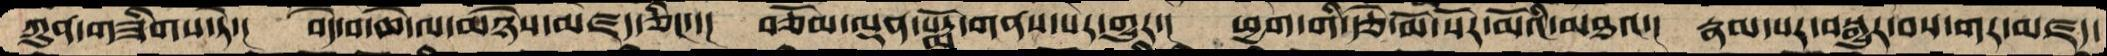ཀུན་གཟིགས་ཏེ་།  བདེ་བ་ཆེ་ལ་མཉེས་མཛད་ཅིང་་།  བཅོམ་ལྡན་པདྨོ་གནས་པར་གྱུར་།  ཕྱག་གི་རྩེ་མོ་སོར་མོའི་མཐའ་།  རྣམ་པར་བསྒྱུར་བས་གར་མཛད་
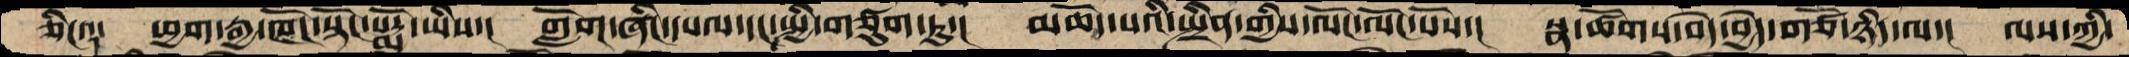ཅིང་༴་  ཕྱག་རྒྱ་ཁོང་སྟོང་པདྨོ་ཡིས་།  གློག་ཞིང་དཔལ་དང་སྤྱི་གཙུག་ཏུ་།  མཆོད་པའི་སྤྲིན་གྱིས་ལོང་ལོང་པོས་།  སྣ་ཚོགས་བདེ་བྱེད་གཙོ་ཉིད་ལ་།  ལས་ཀྱི་
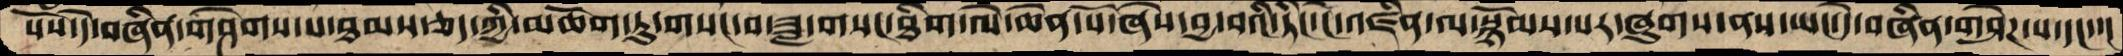པོས་དེ་བཞིན་གཤེགས་པ་ཐམས་ཅད་ཀྱི་མཆོག་ཏུ་གསང་བ་ཟླ་གསང་ཐིག་ལེ་ཆེན་པོ་ཞེས་བྱ་བའི་ཏིང་ངེ་འཛིན་ལ་སྙོམས་པར་ཞུགས་ནས་ཡང་དེ་བཞིན་གཤེཌ་པ་དང་་།
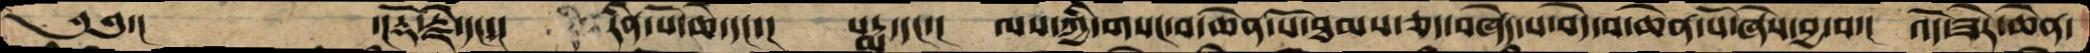༄༅་།        ་།རྡོ་རྗེ་དང་།  རིན་པོ་ཆེ་དང་།  པདྨ་དདང་།  ལས་ཀྱི་གསང་བ་ཆེན་པོ་ཐམས་ཅད་བཞེད་པ་བདེ་བ་ཆེན་པོ་ཞེས་བྱ་བ་།  འདོ་ཟེར་ཆེན་
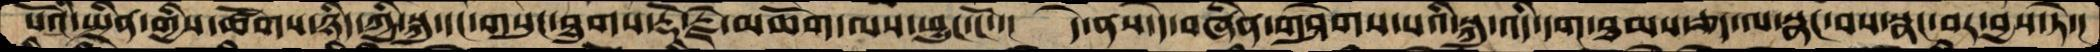པོའི་སྤྲིན་གྱིས་ཚོགས་ཉིད་ཀྱི་སྐུ་དང་གསུང་ཐུགས་རྡོ་རྗེ་མཆོག་ལས་ཕྱུང་ངོ་་།  དེ་ནས་དེ་བཞིན་གཤེགས་པའི་སྐུ་འདི་དག་ཐམས་ཅད་ལ་སྣང་བས་སྣང་བར་བྱས་ཏེ་།
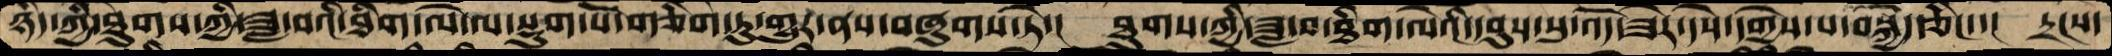ཉིདཀྱི་ཐུགས་ཀྱི་ཟླ་བའི་ཐིག་ལེ་ལ་སྡུག་པོ་གཅིག་ཏུ་གྱུར་ནས་བཞུགས་ཏེ་།  ཐུགས་ཀྱི་ཟླ་བ་ཐིག་ལེའི་དབུས་སུ་འོད་ཟེར་དེས་དགྱེས་པ་བསྐྱེད་ཅིང་་།  དྲངས་
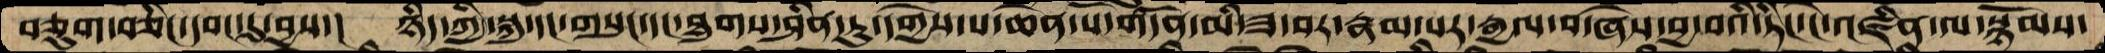བཅུག་བཅིང་དབང་དུ་བྱས་།  ཉིད་ཀྱི་སྐུ་དང་གསུང་དང་ཐུགས་ཤིན་ཏུ་དགྱེས་པ་ཆེན་པོ་གདོན་མི་ཟ་བར་རྣམ་པར་རྒྱལ་བ་ཞེས་བྱ་བའི་ཏིང་ངེ་འཛིན་ལ་སྙོམས་
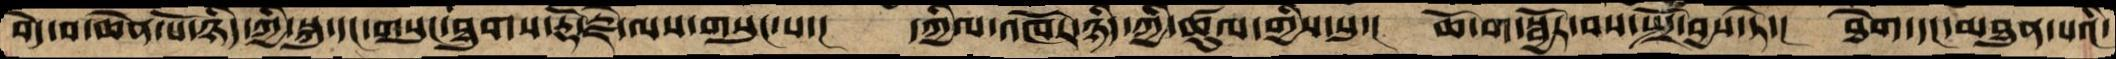བདེ་བ་ཆེན་པོ་ཉིད་ཀྱི་སྐུ་དང་གསུང་ཐུགས་རྡོ་རྗེ་ལས་གསུངས་པ་།  དཀྱིལ་འཁོར་ཉིད་ཀྱི་ཚུལ་གྱིས་སུ་།  ཆོ་ག་སྦྱོར་བས་སྤྲོ་བྱས་ཏེ་།  ཐེག་དང་མཐུན་པའི་
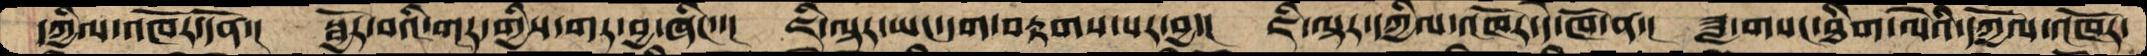དཀྱིལ་འཁོར་དོན་།  སྦྱོར་བའི་གར་གྱིས་གར་བྱ་ཞིང་་།  ཇི་ལྟར་ཡང་དག་བརྟགས་པར་བྱ་།  ཇི་ལྟར་དཀྱིལ་འཁོར་དེ་ཁོ་ན་།  ཟླ་གསང་ཐིག་ལེའི་དཀྱོལ་འཁོར་
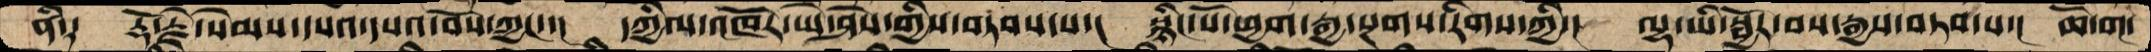ནི་༑  རྡོ་རྗེ་སེམས་དཔའ་དཔའ་བོས་ཀྱང་་།  དཀྱིལ་འཁོར་ཡེ་ཤེས་གྱིས་བཏབས་པ་།  སྙིང་པོ་ཕྱག་རྒྱ་སྔགས་རིགས་ཀྱི་།  ལྷ་ཡི་སྦྱོར་བས་རྒྱས་བཏབ་པ་།  ཆོ་ག་
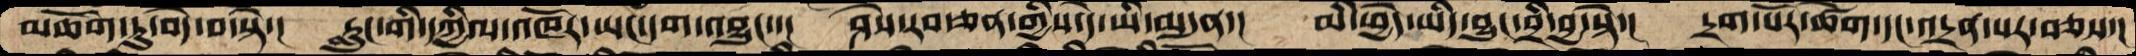མཆོག་ཏུ་བདེ་བ་སྟེ་།  རླུང་གི་དཀྱིལ་འཁོར་ཡང་དག་འབྱུང་་།  ཤེས་རབ་ཅན་གྱིས་དེ་ཡི་མདུན་།  མི་ཕྱེད་ཡིད་བྱུང་བྲི་བྱ་སྟེ་།  དྲག་པོར་ཚེག་དང་འདྲན་པར་བཅས་།
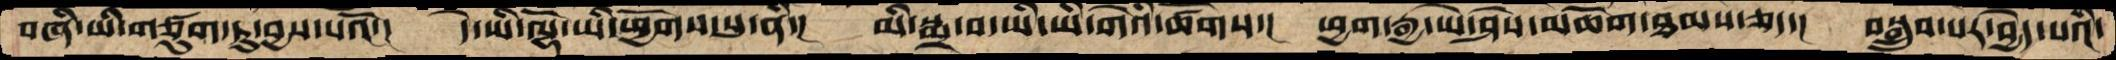བཞི་ཡི་གཙུག་ཏུ་བྱས་པའོ་།  དེ་ཡི་ལྷོ་ཡི་ཕྱོགས་སུ་ནི་།  མི་སྨྲ་བ་ཡི་ཡི་གེའི་ཚོགས་།  ཕྱག་རྒྱ་ཡེ་ཤེས་མཆོག་ཐམས་ཅད་།  བསྒྲུབ་པར་བྱེད་པའི་
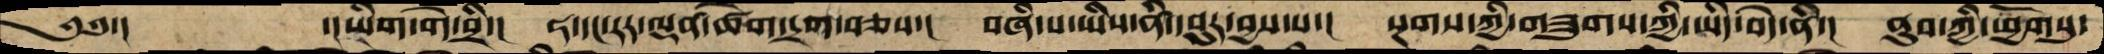༄༅་།          ་།ཡིག་གེ་བྲི་།  ཧ་དང་རར་ལྡན་ཚེག་དྲག་བཅས་།  བཞི་པ་ཡིས་ནི་དབུར་བྱས་པ་།  སྔགས་ཀྱི་གཟུགས་ཀྱི་ཡིད་བདེ་ནི་།  ནུབ་ཀྱི་ཕྱོགསུ་
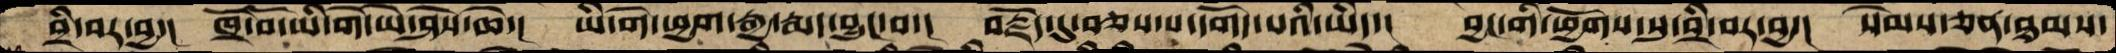བྲི་བར་བྱ་།  ཁྲོ་བོ་ཡི་གེ་ཡེ་ཤེས་ཆེ་།  ཡི་གེ་ཕྱག་རྒྱ་རྨད་བྱུང་བ་།  བརྗོད་དུ་བཅས་པ་དགོད་པའི་ཡིད་།  བྱང་གི་ཕྱོགས་སུ་བྲི་བར་བྱ་།  སེམས་ཅན་ཐམས་
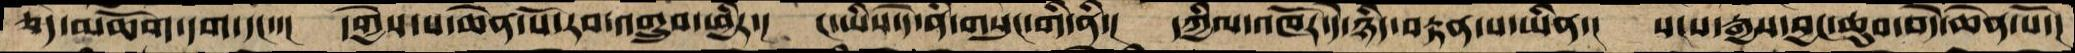ཅད་མཆོག་དག་དང་་།  དགྱེས་པ་ཆེན་པོ་རབ་འགྲུབ་ཕྱིར་།  ང་ཡིས་དེ་ནི་གསུང་གི་ནི་།  དཀྱིལ་འཁོར་དེ་ཉིད་བརྟན་པ་ཡིན་།  སངས་རྒྱས་བྱང་ཆུབ་བདེ་ཆེན་པོ་།
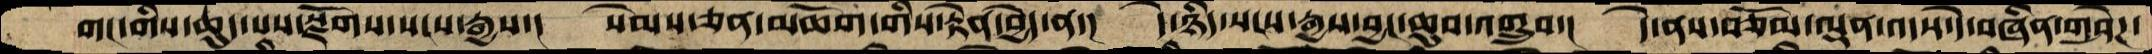གང་གིས་ཆུད་པས་སྫོགས་སངས་རྒྱས་།  སེམས་ཅན་མཆོག་གིས་རྟེན་བྱེད་ན་།  དེ་ཉིད་སངས་རྒྱས་བྱང་ཆུབ་འགྲུབ་།  དེ་ནས་བཅོམ་ལྡན་འདས་དེ་བཞིན་གཤེཌ་
